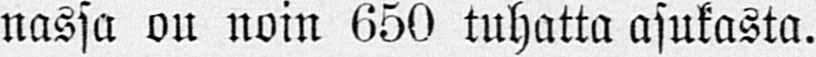nassa ou noin 650 tuhatta asukasta.
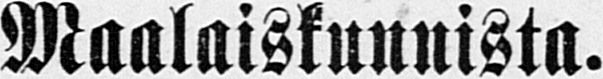Maalaiskunnista.
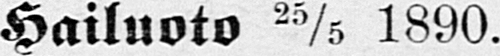— Hailuoto 25/5 1890.
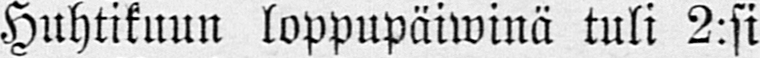Huhtikuun loppupäiwinä tuli 2:si
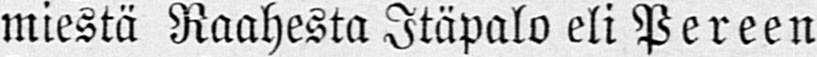miestä Raahesta Itäpalo eli Pereen
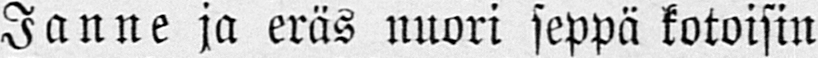Janne ja eräs nuori seppä kotoisin
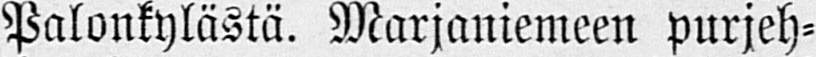Palonkylästä. Marjaniemeen purjeh-
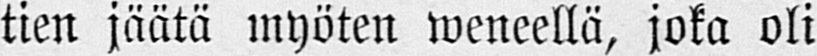tien jäätä myöten weneellä, joka oli
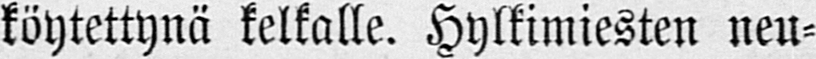köytettynä kelkalle. Hylkimisten neu-
